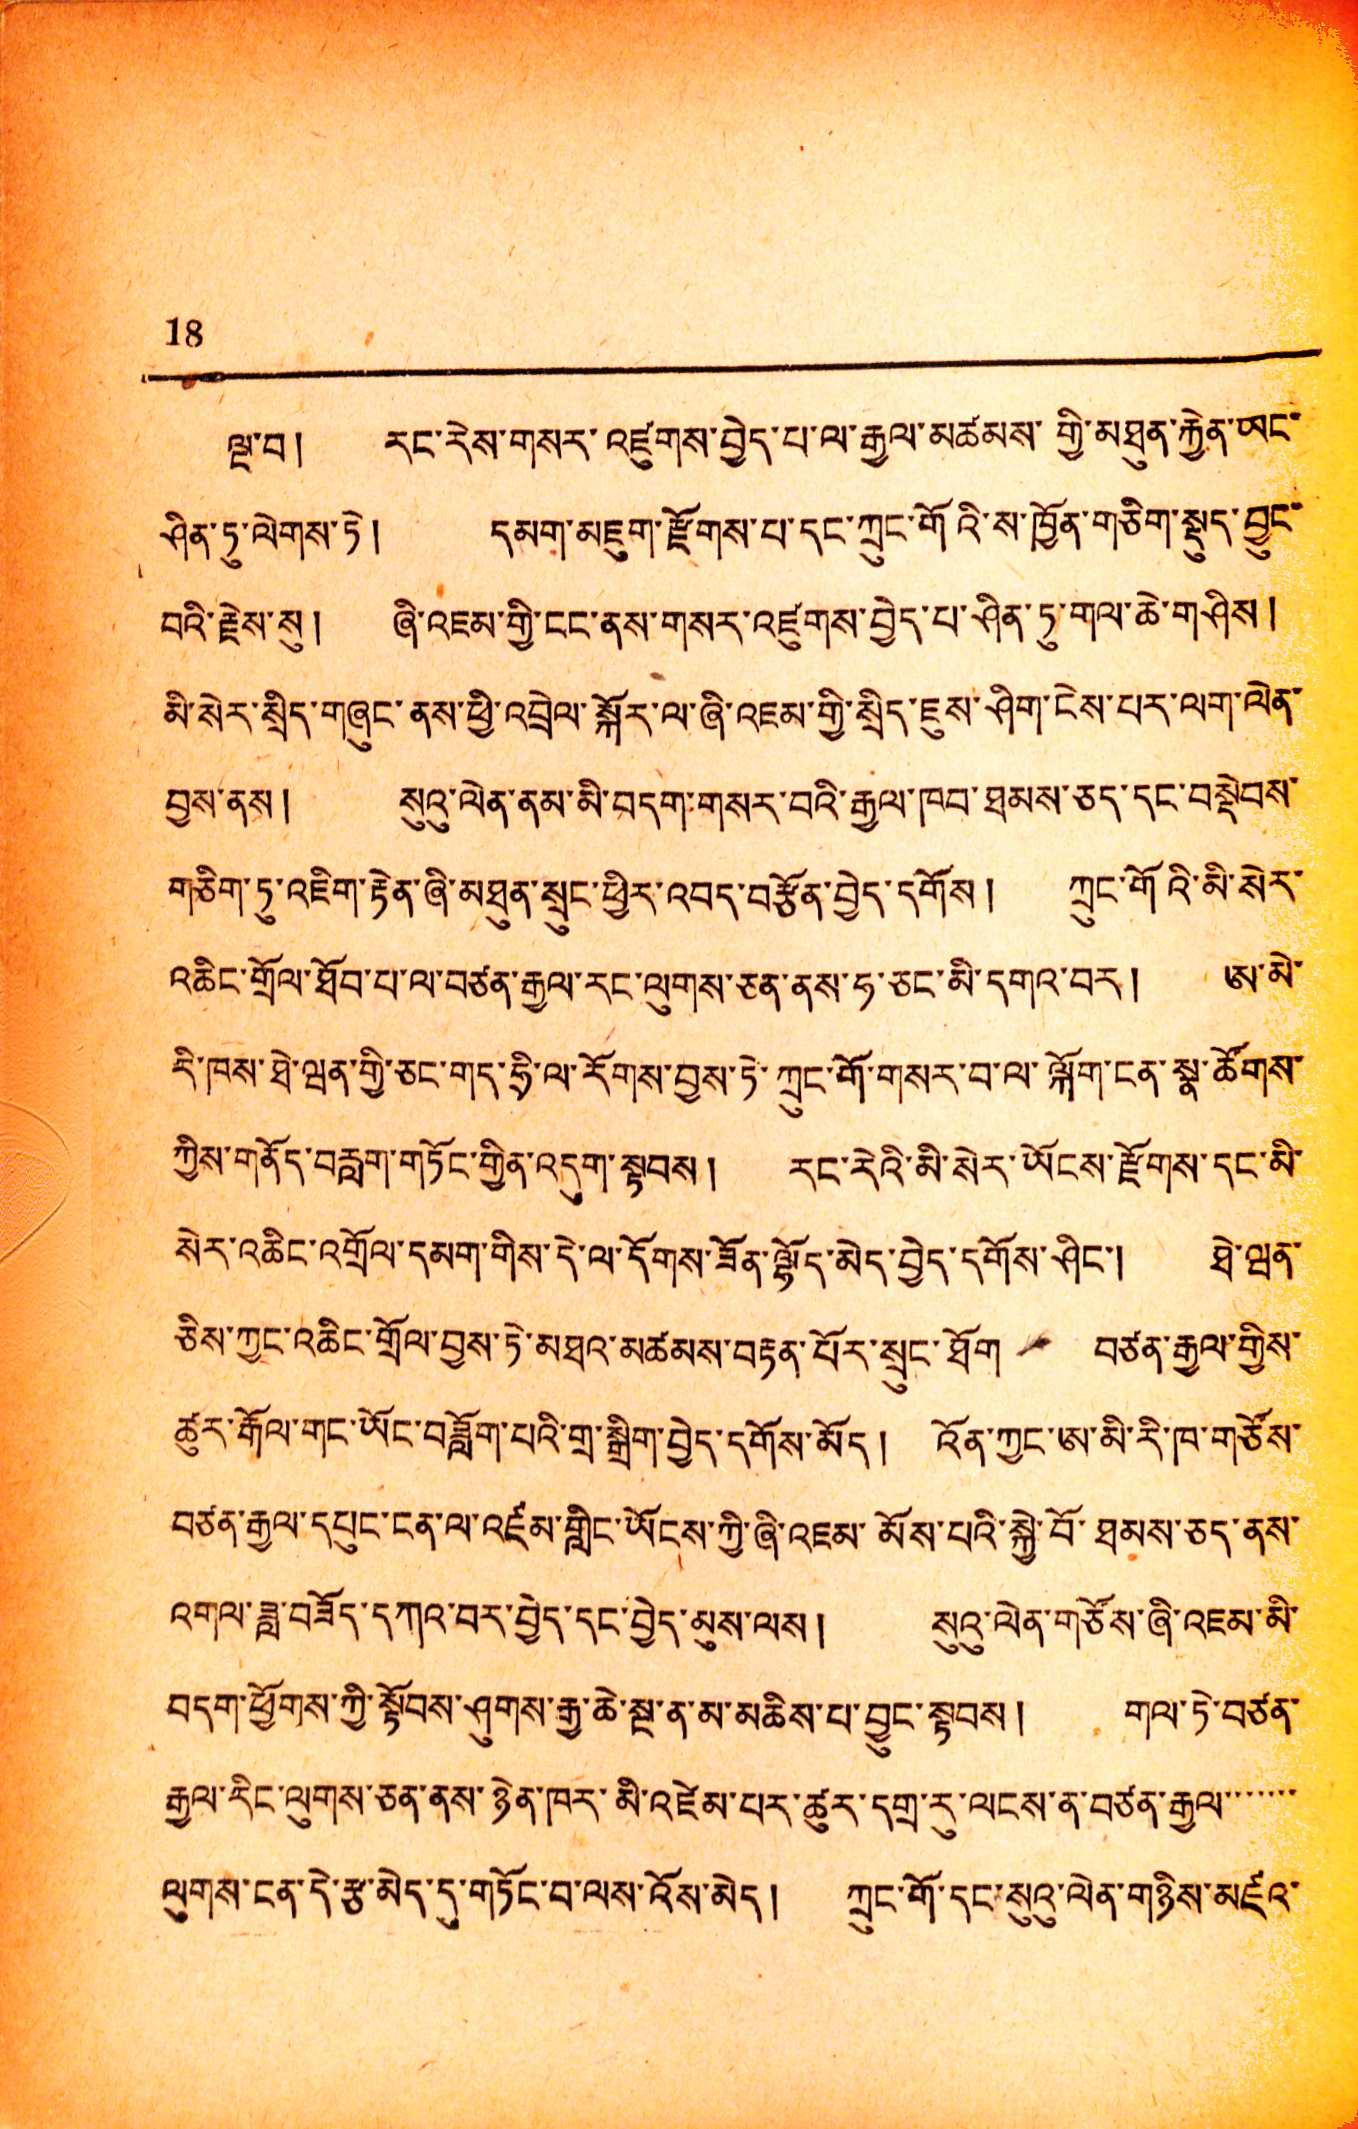18
ལྔ་བ ། རང་རེས་གསར་འཛུགས་བྱེད་པ་ལ་རྒྱལ་མཚམས་གྱི་མཐུན་རྐྱེན་ཡང་
ཤིན་ཏུ་ལེགས་ཏེ ། དམག་མཇུག་རྫོགས་པ་དནག་ཀྲུང་གོའི་ས་ཁྱོན་གཅིག་སྡུད་བྱུང་
བའི་རྗེས་སུ ། ཞི་འཇམ་གྱི་ངང་ནས་གསར་འཛུགས་བྱེད་པ་ཤིན་ཏུ་གལ་ཆེ་གཤིས།
མི་སར་སྲིད་གཞུང་ནས་ཕྱི་འབྲེལ་སྐོར་ལ་ཞི་འཇམ་གྱི་སྲིད་ཇུས་ཤིག་ངེས་པར་ལག་ལེན་
བྱས་ནས ། སུའུ་ལེན་ནམ་མི་བདག་གསར་བའི་རྒྱལ་ཁབ་ཐམས་ཅད་དང་བསྡེབས་
གཅིག་ཏུ་འཇིག་རྟེན་ཞི་མཐུན་སྲུང་ཕྱིར་འབད་བརྩོན་བྱེད་འགོས ། ཀྲུང་གོའི་མི་སིར་
འཆིང་གྲོལ་ཐོབ་པ་ལ་བཙན་རྒྱལ་རང་ལུགས་ཅན་ནས་ཧ་ཅང་མི་དགའ་བར ། ཨ་མེ་
རི་ཁས་ཐེ་ཝན་གྱི་ཅང་གད་ཧྲི་ལ་རོགས་བྱས་ཏེ་ཀྲུང་གོ་གསར་བ་ལ་ལྐོག་ངན་སྣ་ཚོགས་
ཀྱིས་གནོད་བརླག་གཏོང་གྱིན་འདུག་སྟབས ། རང་རེའི་མི་སེར་ཡོངས་རྫོགས་དང་མི་
སེར་འཆིང་འགྲོལ་འམག་གིས་དེ་ལ་དོགས་ཟོན་ལྷོད་མེད་བྱེད་དགོས་ཤིང་། ཐེ་ཝན་
ཅིས་ཀྱང་འཆིང་གྲོལ་བྱས་ཏེ་མཐའ་མཚམས་བརྟན་པོར་སྲུང་ཐོག བཙན་རྒྱལ་གྱིས་
ཚུར་རྒོལ་གང་ཡོང་བཟློག་པའི་གྲ་སྒྲིག་བྱེད་དགོས་མོད ། འོན་ཀྱང་ཨ་མི་རི་ཁ་གཙོས་
བཙན་རྒྱལ་དཔུང་ངན་ལ་འཛམ་གླིང་ཡོངས་ཀྱི་ཞི་འཇམ་མོས་པའི་སྐྱེ་བོ་ཐམས་ཅད་ནས་
འགལ་ཟླ་བཟོད་དཀའ་བར་བྱེད་དང་བྱེད་མུས་ལས ། སུའུ་ལེན་གཙོས་ཞི་འཇམ་མི་
བདག་ཕྱོགས་ཀྱི་སྟོབས་ཤུགས་རྒྱ་ཆེ་སྔ་ན་མ་མཆིས་པ་བྱུང་སྟབས ། གལ་ཏེ་བཙན་
རྒྱལ་རིང་ལུགས་ཅན་ནས་ཉེན་ཁར་མི་འཛེམ་པར་ཚུར་དགྲ་རུ་ལངས་ན་བཙན་རྒྱལ་་་་་
ཐུགས་ངན་དེ་རྩ་མེད་དུ་གཏོང་བ་ལས་འོས་མེད ། ཀྲུང་གོ་དང་སུའུ་ལེན་གཉིས་མཛའ་
